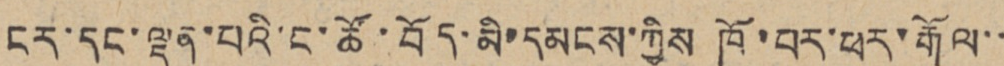ངར་དང་ལྡན་པའི་ང་ཚོ་བོད་མི་དམངས་ཀྱིས ཁོ་བར་ཕར་རྒོལ་་
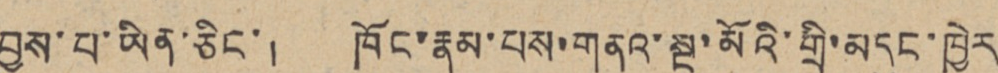བྱས་པ་ཡིན་ཅིང་། ཁོང་རྣམ་པས་གནའ་སྔ་མོའི་གྲི་མདུང་ཁྱེར
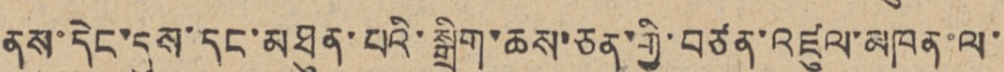ནས་དེང་དུས་དང་མཐུན་པའི་སྒྲིག་ཆས་ཅན་གྱི་བཙན་འཛུལ་མཁན་ལ་
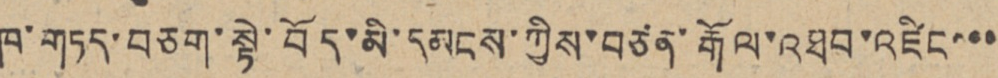ཁ་གཏད་བཅག་སྟེ་བོད་མི་དམངས་ཀྱིས་བཙན་རྒོལ་འཐབ་འཛིང་་་
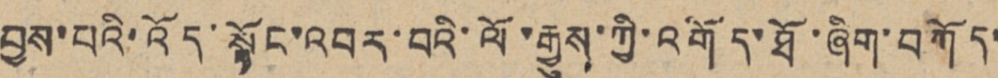བྱས་པའི་འོད་སྟོང་འབར་བའི་ལོ་རྒྱུས་ཀྱི་འགོད་ཐོ་ཞིག་བཀོད་
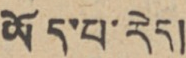ཡོད་པ་རེད།
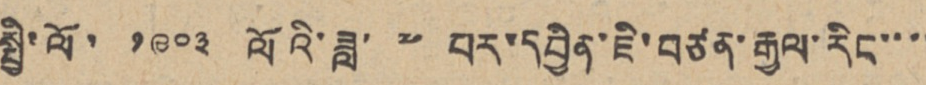སྤྱི་ལོ་ ༡༩༠༣ ལོའི་ཟླ་ ༧ པར་དབྱིན་ཇི་བཙན་རྒྱལ་རིང་་་་
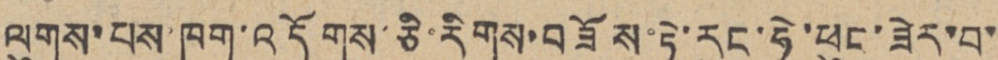ལུགས་པས་ཁག་འདོགས་ཅི་རིགས་བཟོས་ཏེ་རུང་ཧེ་ཕུང་ཟེར་བ་་
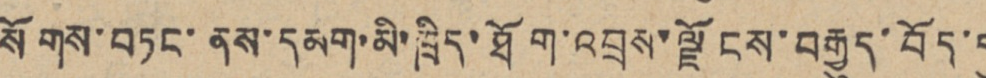སོགས་བཏང་ནས་དམག་མི་ཁྲིད་ཐོག་འབྲས་ལྗོངས་བརྒྱུད་བོད་དུ
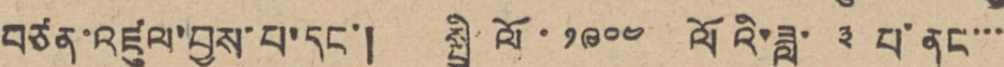བཙན་འཛུལ་བྱས་པ་དང་། སྤྱི་ལོ་ ༡༩༠༠ ལོའི་ཟླ་ ༣ པ་ནང་་་
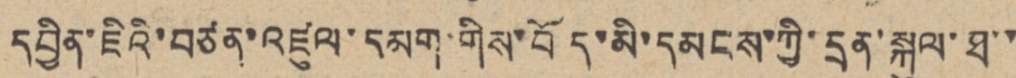དབྱིན་ཇིའི་བཙན་འཛུལ་དམག་གིས་བོད་མི་དམངས་ཀྱི་དྲན་སྐུལ་ཐ་་
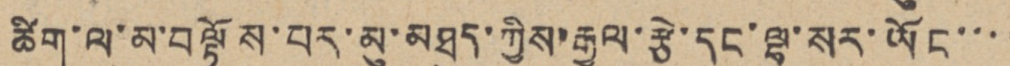ཚིག་ལ་མ་བལྟོས་པར་མུ་མཐུད་ཀྱིས་རྒྱལ་རྩེ་དང་ལྷ་སར་ཡོང་་་་
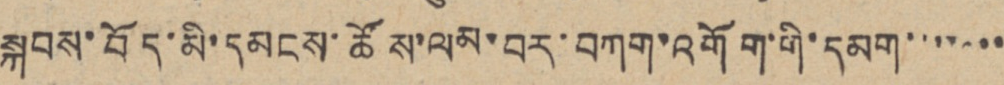སྐབས་བོད་མི་དམངས་ཚོས་ལམ་བར་བཀག་འགོག་གི་དམག་་་་་་་
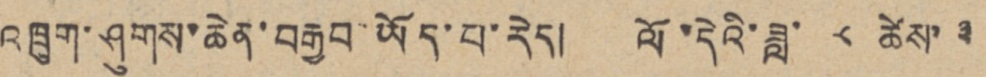འཁྲུག་ཤུགས་ཆེན་བརྒྱབ་ཡོད་པ་རེད། ལོ་དེའི་ཟླ་ ༨ ཚེས་ ༣
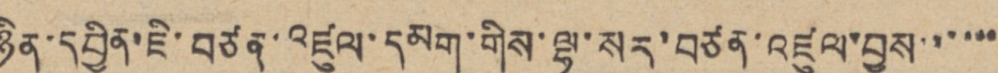ཉིན་དབྱིན་ཇི་བཙན་འཛུལ་དམག་གིས་ལྷ་སར་བཙན་འཛུལ་བྱས་་་་་་
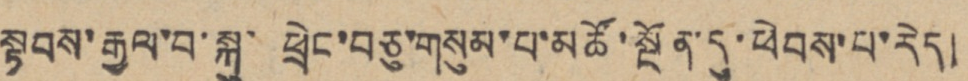སྟབས་རྒྱལ་བ་སྐུ་ ཕྲེང་བཅུ་གསུམ་པ་མཚོ་སྔོན་དུ་ཕེབས་པ་རེད།
